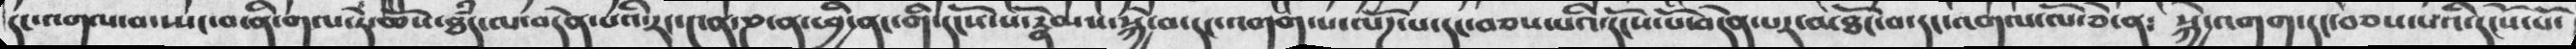དང་འགལ་བ་ཡང་བ་ནི་གལ་ཏེ་ཆོས་ཐཾད་ལ་བདེན་པའི་རང་༤ན་ཎ་ན་ཕྱི་ནང་གི་དངོས་པོ་རྣམས་སྐྱེ་བ་དང་འགག་པ་ལོཌ་པ་དང་བཅས་པའི་དངོས་པོ་བདེན་པར་མཐོང་བ་དང་འགལ་ལོ་ཅེ་ན༴    སྐྱེ་འགག་དང་བཅས་པའི་དངོས་པོ་
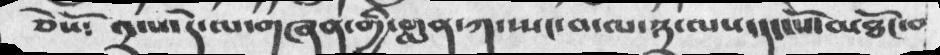ཅེསོ༴ ༢་པ་དེ་ལ་གཞན་གྱི་གླན་ཀ་སྤང་བ་ལ་༣་ལས་དང་པོ་མཐོང་བ
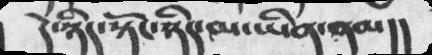དེ་ཉིད་སྟོང་ཉིད་མ་ཡིན་ནམ།།
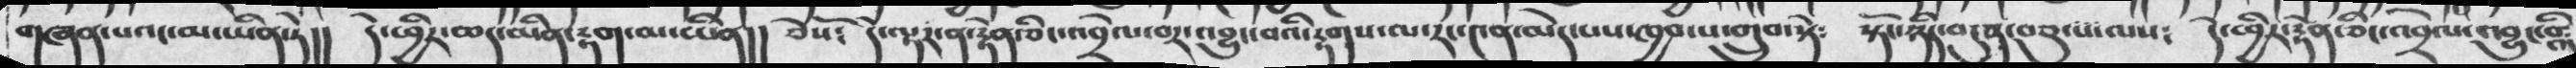གཞན་པའང་མ་ཡིན་ཏེ།།  དེ་ཕྱིར་ཆད་མིན་རྟག་མ་ཡིན།། ཅེསོ༴   དེ་ལྟར་ན་རྟེན་ཅིང་འབྲེལ་བར་འབྱུང་བའི་རྟགས་ལ་རང་༤ན་མེད་པས་ཁྱབ་པ་གྲུབ་སྟེ༴   སྟོང་ཉིད་བདུན་བཅུ་པ་ལས༴  དེ་ཕྱིར་རྟེན་ཅིང་འབྲེལ་འབྱུང་བའི༴
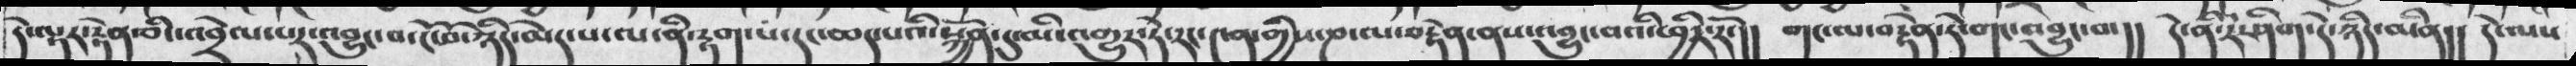དེ་ལྟར་རྟེན་ཅིང་འབྲེལ་པར་འབྱུང་བ་ངོ་བོ་ཉིད་མེད་པ་ལ་ནི་རྟག་པ་དང་ཆད་པའི་སྐྱོན་དུ་མི་འགྱུར་ཏེ་རང་༤ན་གྱིས་ཎ་ལ་བརྟེན་ནས་འབྱུང་བའི་ཕྱིར་རོ་།། གང་ལ་བརྟེན་ཏེ་གང་འབྱུང་བ་།། དེ་ནི་རེ་ཤིག་དེ་ཉིད་མིན།། དེ་ལས
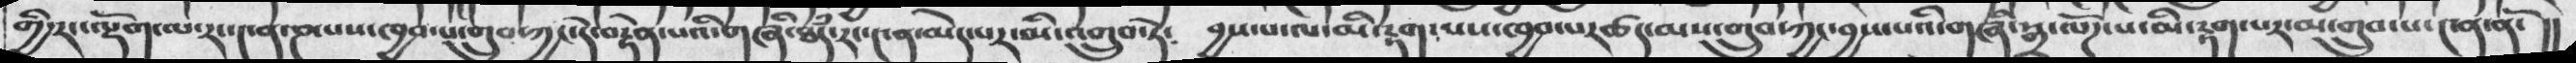གྱི་རང་ལྡོག་ལ་རང་༤ན་ཎ་པས་ཁྱབ་པ་གྲུབ་ཀྱང་དེ་བརྟེན་པའི་གཞི་ཐཾད་རང་༤ན་མེད་པར་མི་འགྲུབ་ཏེ༴ བྱས་པ་ལ་མི་རྟག་པས་ཁྱབ་པརཚད་མས་གྲུབ་ཀྱང་བྱས་པའི་གཞི་སྒྲ་ལོཌ་པ་མི་རྟག་པར་མ་གྲུབ་པ་༤ན་ནོ་།།
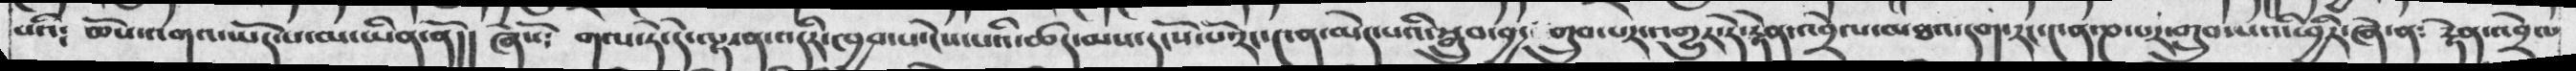པའི༴ ཆོས་འགའ་ཡོད་པ་མ་ཡིན་ནོ།། ཞེསོ༴ གལ་ཏེ་དེ་ལྟ་ན་འདིར་ཁྱབ་པ་ངེས་པའི་ཚད་མས་དངོས་པོ་རང་༤ན་མེད་པའི་སྒྲུབ་བྱ་གྲུབ་པར་འགྱུར་ཏེ་རྟེན་འབྲེལ་མཐའ་དག་རང་༤ན་ཎ་པར་གྲུབ་པའི་ཕྱིར་ཞེ་ན༴ རྟེན་འབྲེལ
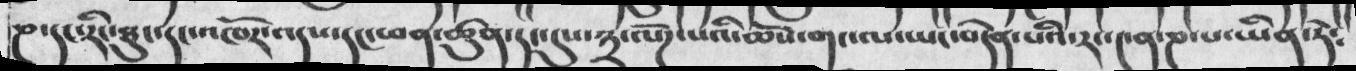ཎ་དང་རིང་ཐུང་དང་འཁོར་འདས་དང་ཕན་ཚུན་དང་དུས་༣་ལོག་པའི་ཆོས་གང་ལ་ཡང་བདེན་པའི་རང་༤ན་ཎ་པ་ཡིན་ཏེ༴
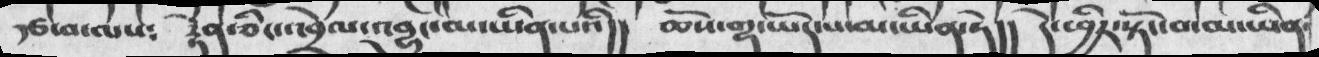རྩ་བ་ལས༴    རྟེན་ཅིང་འབྲེལ་འབྱུང་མ་ཡིན་པའི།།   ཆོས་གྷ་ཡོད་པ་མ་ཡིན་ཏེ།།   དེ་ཕྱིར་སྟོང་བ་མ་ཡིན་
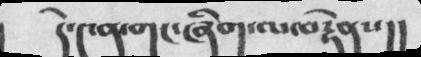དེ་༤ན་གང་ཞིག་ལ་བརྟེནས།།
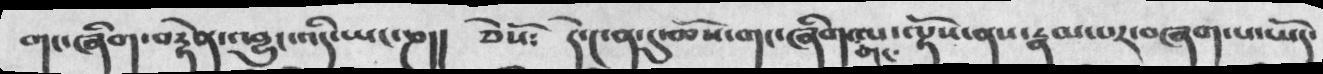གང་ཞིག་བརྟེན་འབྱུང་འདི་ཡང་ཎ།།  ཅེསོ༴    དེ་༤ན་དུ་ཆོས་གང་ཞིག་གང་ལ་ལྟོས་ནས་རྣམ་པར་བཞག་པ་ཡོད་
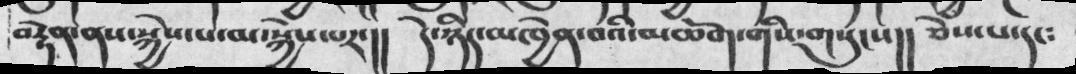བརྟེན་ནས་སྐྱེས་པ་མ་སྐྱེས་པར་།།  དེ་ཉིད་མཁྱེན་བའི་མཆོག་གིས་གསུངས།། ཅེས་པ་དང༴
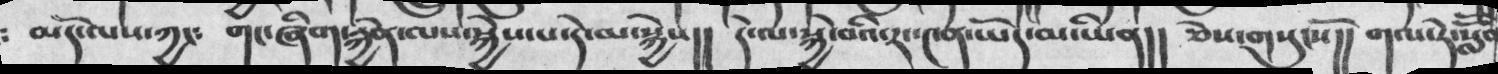མདོ་ལས་ཀྱང༴  གང་ཞིག་རྐྱེན་ལས་སྐྱེས་པ་དེ་མ་སྐྱེས།།  དེ་ལ་སྐྱེ་བའི་རང་༤ན་ཡོད་མ་ཡིན།།  ཅེས་གསུངསོ།།  གལ་ཏེ་སློོན
